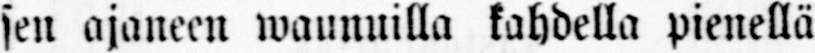sen ajaneen waunuilla kahdella pienellä
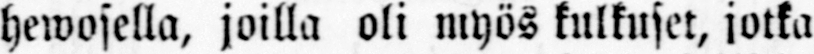hewosella, joilla oli myös kulkuset, jotka
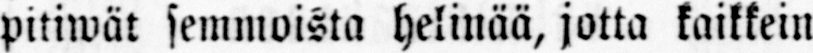pitiwät semmoista helinää, jotta kaikkein
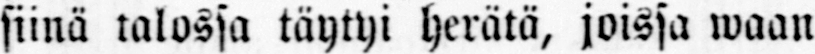siinä talossa täytyi herätä, joissa waan
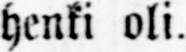henki oli.
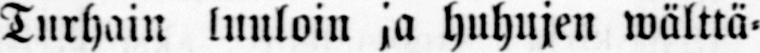Turhain luuloin ja huhujen wälttä-
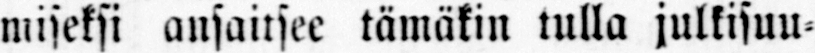miseksi ansaitsee tämäkin tulla julkisuu-
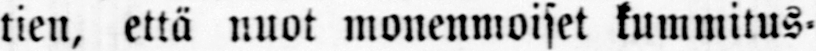tien, että nuot monenmoiset kummitus-
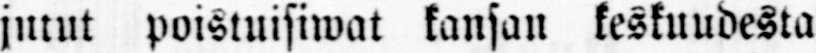jutut poistuisiwat kansan keskuudesta
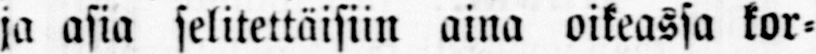ja asia selitettäisiin aina oikeassa kar-
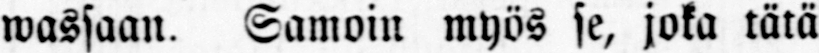wassaan. Samoin myös se, joka tätä
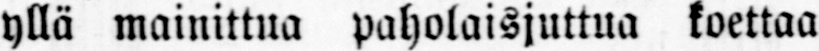yllä mainittua paholaisjuttua koettaa
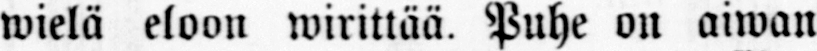wielä eloon wirittää. Puhe on aiwan
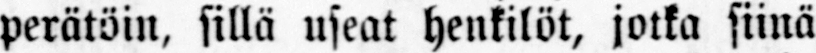perätöin, sillä useat henkilöt, jotka siinä
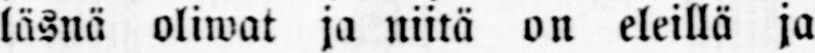läsnä oliwat ja niitä on eleillä ja
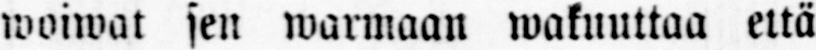woiwat sen warmaan wakuuttaa että
